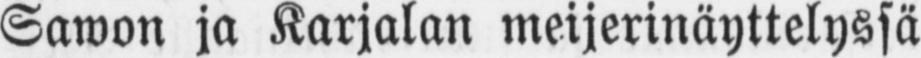Sawon ja Karjalan meijerinäyttelyssä
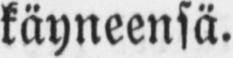käyneensä.
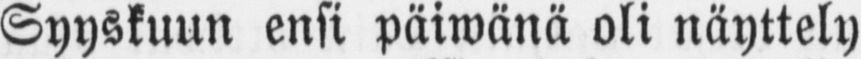Syyskuun ensi päiwänä oli näyttely
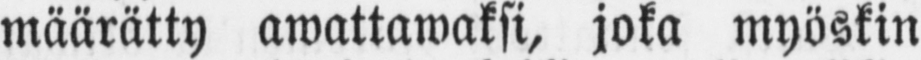määrätty awattawaksi, joka myöskin
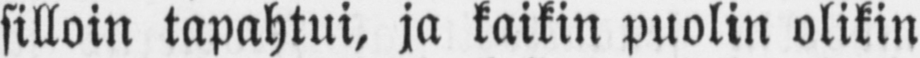silloin tapahtui, ja kaikin puolin olikin
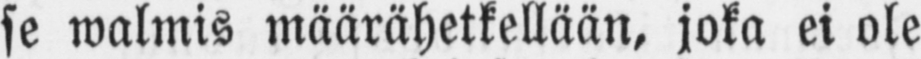se walmis määrähetkellään, joka ei ole
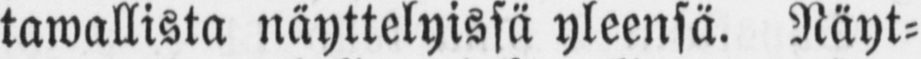tawallista näyttelyissä yleensä. Näyt-
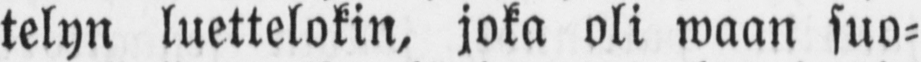telyn luettelokin, joka oli waan suo-
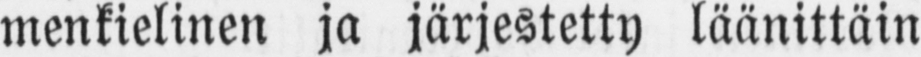menkielinen ja järjestetty läänittäin
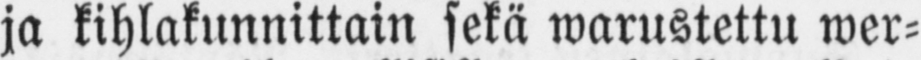ja kihlakunnittain sekä warustettu wer-
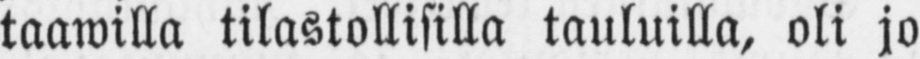taawilla tilastollisilla tauluilla, oli jo
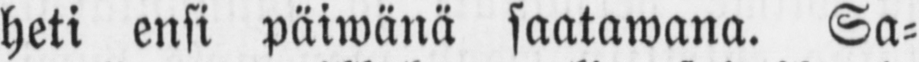heti ensi päiwänä saatawana. Sa-
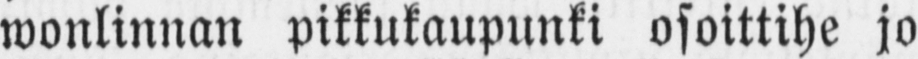wonlinnan pikkukaupunki osoittihe jo
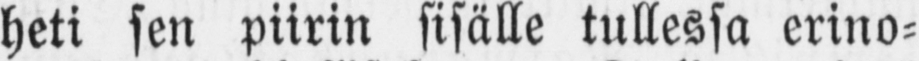heti sen piirin sisälle tullessa erino-
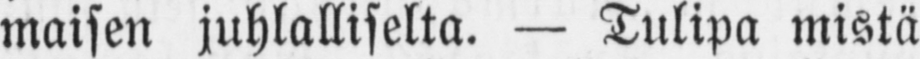maisen juhlalliselta. — Tulipa mistä
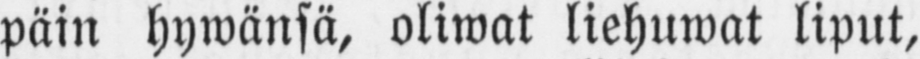päin hywänsä, oliwat liehuwat liput,
